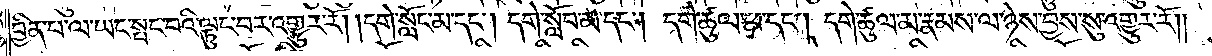བྱིན་པ་ལ་ཡང་སྤང་བའི་ལྟུང་བར་འགྱུར་རོ། །དགེ་སློང་མ་དང༌། དགེ་སློབ་མ་དང༌། དགེ་ཚུལ་ཕ་དང༌། དགེ་ཚུལ་མ་རྣམས་ལ་ཉེས་བྱས་སུ་འགྱུར་རོ༎
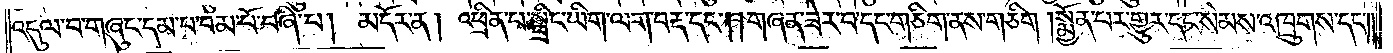འདུལ་བ་གཞུང་དམ་པ་བམ་པོ་བཞི་པ། མདོར་ན། འཕྲིན་པ་སྤྲིང་ཡིག་ལག་བརྡ་དང༌། །གཞན་ཟེར་བ་དང་གཅིག་ནས་གཅིག །སྨྱོན་པར་གྱུར་དང་སེམས་འཁྲུགས་དང༌། །
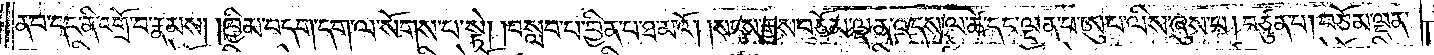ན་བ་དང་ནི་འགྲོ་བ་རྣམས། །ཁྱིམ་བདག་དག་ལ་སོགས་པ་སྟེ། །བསླབ་པ་བྱིན་པ་ཐ་མའོ། །སངས་རྒྱས་བཅོམ་ལྡན་འདས་ལ་ཚེ་དང་ལྡན་པ་ཨུ་པ་ལིས་ཞུས་པ། བཙུན་པ། བཅོམ་ལྡན་
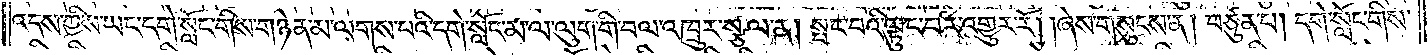འདས་ཀྱིས་ཡང་དགེ་སློང་གིས་གཉེན་མ་ལགས་པའི་དགེ་སློང་མ་ལ་ལུག་གི་བལ་འཁྲུར་སྩལ་ན། སྤང་བའི་ལྟུང་བར་འགྱུར་རོ། །ཞེས་གསུངས་ན། བཙུན་པ། དགེ་སློང་གིས་
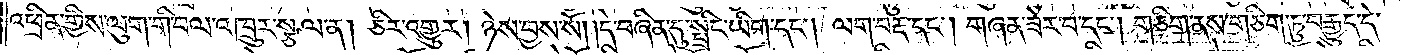འཕྲིན་གྱིས་ལུག་གི་བལ་འཁྲུར་སྩལ་ན། ཅིར་འགྱུར། ཉེས་བྱས་སོ། །དེ་བཞིན་དུ་སྤྲིང་ཡིག་དང༌། ལག་བརྡ་དང༌། གཞན་ཟེར་བ་དང༌། གཅིག་ནས་གཅིག་ཏུ་བརྒྱུད་དེ་
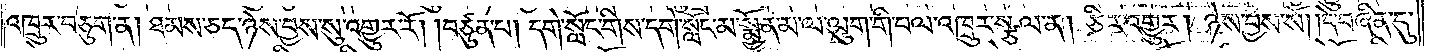འཁྲུར་བཅུག་ན། ཐམས་ཅད་ཉེས་བྱས་སུ་འགྱུར་རོ། །བཙུན་པ། དགེ་སློང་གིས་དགེ་སློང་མ་སྨྱོན་མ་ལ་ལུག་གི་བལ་འཁྲུར་སྩལ་ན། ཅིར་འགྱུར། ཉེས་བྱས་སོ། །དེ་བཞིན་དུ་
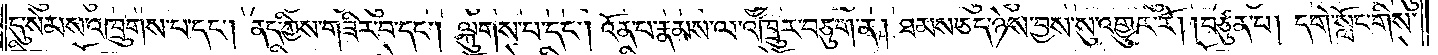དུ་སེམས་འཁྲུགས་པ་དང༌། ནད་ཀྱིས་གཟིར་བ་དང༌། ལྐུགས་པ་དང༌། འོན་པ་རྣམས་ལ་འཁྲུར་བཅུག་ན། ཐམས་ཅད་ཉེས་བྱས་སུ་འགྱུར་རོ། །བཙུན་པ། དགེ་སློང་གིས་
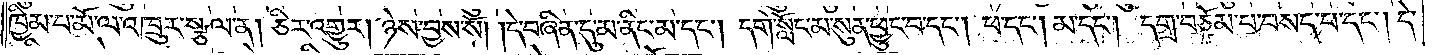ཁྱིམ་པ་མོ་ལ་འཁྲུར་སྩལ་ན། ཅིར་འགྱུར། ཉེས་བྱས་སོ། །དེ་བཞིན་དུ་མ་ནིང་མ་དང༌། དགེ་སློང་མ་སུན་ཕྱུང་བ་དང༌། ཕ་དང༌། མ་དང༌། དགྲ་བཅོམ་པ་བསད་པ་དང༌། དེ་
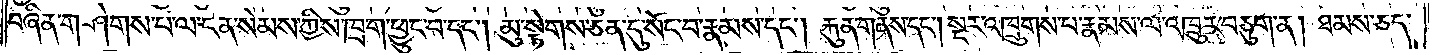བཞིན་གཤེགས་པ་ལ་ངན་སེམས་ཀྱིས་ཁྲག་ཕྱུང་བ་དང༌། མུ་སྟེགས་ཅན་དུ་སོང་བ་རྣམས་དང༌། རྐུན་གནས་དང༌། སྔར་འཁྲུགས་པ་རྣམས་ལ་འཁྲུར་བཅུག་ན། ཐམས་ཅད་
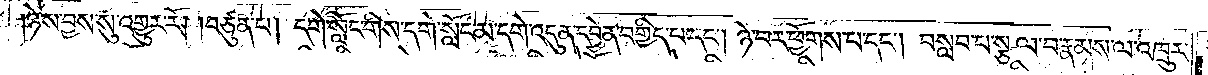ཉེས་བྱས་སུ་འགྱུར་རོ། །བཙུན་པ། དགེ་སློང་གིས་དགེ་སློང་མ་དགེ་འདུན་དབྱེན་བགྱིད་པ་དང༌། ཉེ་བར་ཕྱོགས་པ་དང༌། བསླབ་པ་སྩལ་བ་རྣམས་ལ་འཁྲུར་
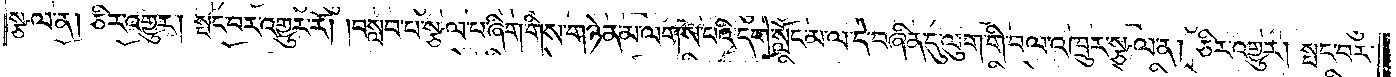སྩལ་ན། ཅིར་འགྱུར། སྤང་བར་འགྱུར་རོ། །བསླབ་པ་སྩལ་པ་ཞིག་གིས་གཉེན་མ་ལགས་པའི་དགེ་སློང་མ་ལ་དེ་བཞིན་དུ་ལུག་གི་བལ་འཁྲུར་སྩལ་ན། ཅིར་འགྱུར། སྤང་བར་
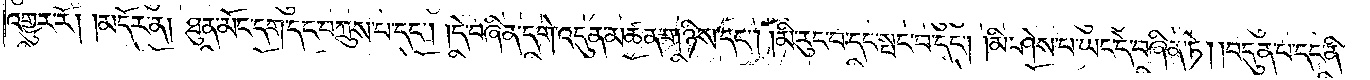འགྱུར་རོ། །མདོར་ན། ཐུན་མོང་དག་དང་བཀྲུས་པ་དང༌། །དེ་བཞིན་དགེ་འདུན་མཚན་གཉིས་དང༌། །མི་རུང་བ་དང་སྤང་བ་དང༌། །མི་ཤེས་པ་ཡང་དེ་བཞིན་ཏེ། །བདུན་པ་དང་ནི་
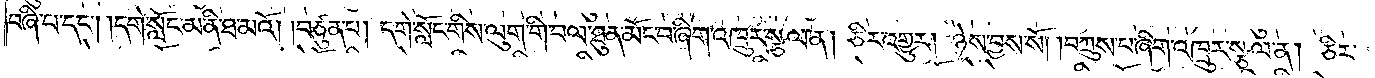བཞི་པ་དང༌། །དགེ་སློང་མ་ནི་ཐ་མའོ། །བཙུན་པ། དགེ་སློང་གིས་ལུག་གི་བལ་ཐུན་མོང་བ་ཞིག་འཁྲུར་སྩལ་ན། ཅིར་འགྱུར། ཉེས་བྱས་སོ། །བཀྲུས་པ་ཞིག་འཁྲུར་སྩལ་ན། ཅིར་
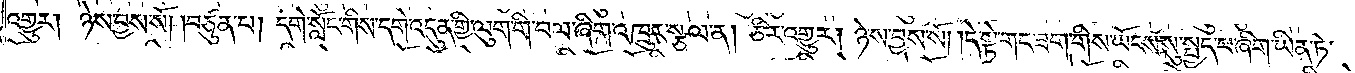འགྱུར། ཉེས་བྱས་སོ། །བཙུན་པ། དགེ་སློང་གིས་དགེ་འདུན་གྱི་ལུག་གི་བལ་ཞིག་འཁྲུར་སྩལ་ན། ཅིར་འགྱུར། ཉེས་བྱས་སོ། །དེ་སྟེ་གང་ཟག་གིས་ཡོངས་སུ་སྤྱད་པ་ཞིག་ཡིན་ཏེ་
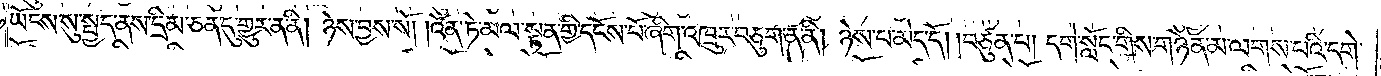ཡོངས་སུ་སྤྱད་ནས་དྲི་མ་ཅན་དུ་གྱུར་ན་ནི། ཉེས་བྱས་སོ། །འོན་ཏེ་མལ་སྟན་གྱི་དངོས་པོ་ཞིག་འཁྲུར་བཅུག་ན་ནི། ཉེས་པ་མེད་དོ། །བཙུན་པ། དགེ་སློང་གིས་གཉེན་མ་ལགས་པའི་དགེ་
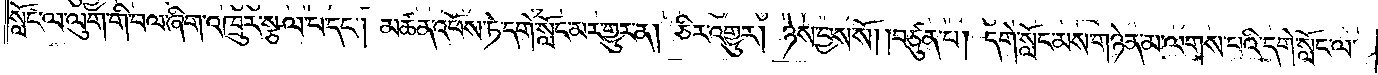སློང་ལ་ལུག་གི་བལ་ཞིག་འཁྲུར་སྩལ་པ་དང༌། མཚན་འཕོས་ཏེ་དགེ་སློང་མར་གྱུར་ན། ཅིར་འགྱུར། ཉེས་བྱས་སོ། །བཙུན་པ། དགེ་སློང་མས་གཉེན་མ་ལགས་པའི་དགེ་སློང་ལ་
